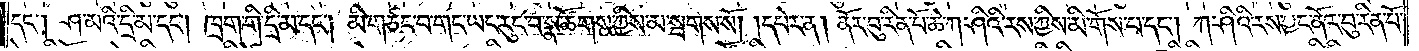དང༌། ཤ་མའི་དྲི་མ་དང༌། ཁྲག་གི་དྲི་མ་དང༌། མི་གཙང་བ་གང་ཡང་རུང་བ་སྣ་ཚོགས་ཀྱིས་མ་སྦགས་སོ། །དཔེར་ན། ནོར་བུ་རིན་པོ་ཆེ་ཀ་ཤིའི་རས་ཀྱིས་མི་གོས་པ་དང༌། ཀ་ཤིའི་རས་ཀྱང་ནོར་བུ་རིན་པོ་
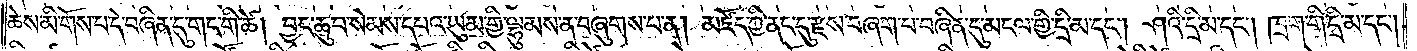ཆེས་མི་གོས་པ་དེ་བཞིན་དུ་གང་གི་ཚེ། བྱང་ཆུབ་སེམས་དཔའ་ཡུམ་གྱི་ལྷུམས་ན་བཞུགས་པ་ན། མཛོད་ཀྱི་ནང་དུ་རྫས་བཞག་པ་བཞིན་དུ་མངལ་གྱི་དྲི་མ་དང༌། ཤའི་དྲི་མ་དང༌། ཁྲག་གི་དྲི་མ་དང༌།
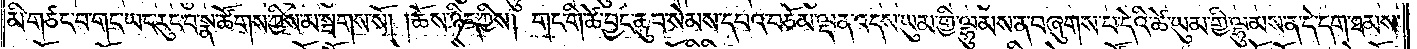མི་གཙང་བ་གང་ཡང་རུང་བ་སྣ་ཚོགས་ཀྱིས་མ་སྦགས་སོ། །ཆོས་ཉིས་ཀྱིས། གང་གི་ཚེ་བྱང་ཆུབ་སེམས་དཔའ་བཅོམ་ལྡན་འདས་ཡུམ་གྱི་ལྷུམས་ན་བཞུགས་པ་དེའི་ཚེ་ཡུམ་གྱི་ལྷུམས་ན་དེ་དག་ཐམས་
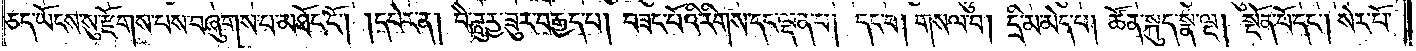ཅད་ཡོངས་སུ་རྫོགས་པས་བཞུགས་པ་མཐོང་ངོ༌། །དཔེར་ན། བཻ་ཌཱུཪྻ་ཟུར་བརྒྱད་པ། བཟང་པོའི་རིགས་དང་ལྡན་པ། དང་བ། གསལ་བ། དྲི་མ་མེད་པ། ཚོན་སྐུད་སྣ་ལྔ། སྔོན་པོ་དང༌། སེར་པོ་
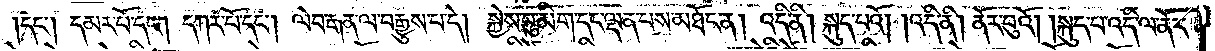དང༌། དམར་པོ་དང༌། དཀར་པོ་དང༌། ལེབ་རྒན་ལ་བརྒྱུས་པ་དེ། སྐྱེས་བུ་མིག་དང་ལྡན་པས་མཐོང་ན། འདི་ནི། སྐུད་པའོ། །འདི་ནི། ནོར་བུའོ། །སྐུད་པ་འདི་ལ་ནོར་
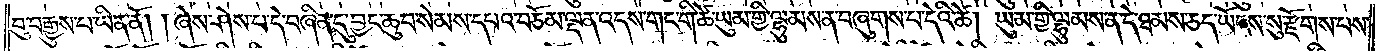བུ་བརྒྱུས་པ་ཡིན་ནོ། །ཞེས་ཤེས་པ་དེ་བཞིན་དུ་བྱང་ཆུབ་སེམས་དཔའ་བཅོམ་ལྡན་འདས་གང་གི་ཚེ་ཡུམ་གྱི་ལྷུམས་ན་བཞུགས་པ་དེའི་ཚེ། ཡུམ་གྱི་ལྷུམས་ན་དེ་ཐམས་ཅད་ཡོངས་སུ་རྫོགས་པས་
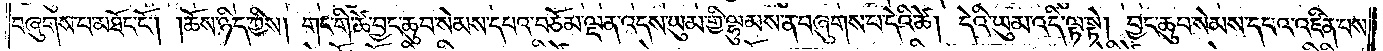བཞུགས་པ་མཐོང་ངོ༌། །ཆོས་ཉིད་ཀྱིས། གང་གི་ཚེ་བྱང་ཆུབ་སེམས་དཔའ་བཅོམ་ལྡན་འདས་ཡུམ་གྱི་ལྷུམས་ན་བཞུགས་པ་དེའི་ཚེ། དེའི་ཡུམ་འདི་ལྟ་སྟེ། བྱང་ཆུབ་སེམས་དཔའ་འཛིན་པས་
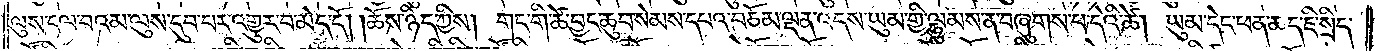ལུས་ངལ་བའམ་ལུས་དུབ་པར་འགྱུར་བ་མེད་དོ། །ཆོས་ཉིད་ཀྱིས། གང་གི་ཚེ་བྱང་ཆུབ་སེམས་དཔའ་བཅོམ་ལྡན་འདས་ཡུམ་གྱི་ལྷུམས་ན་བཞུགས་པ་དེའི་ཚེ། ཡུམ་དེང་ཕན་ཆད་ཇི་སྲིད་
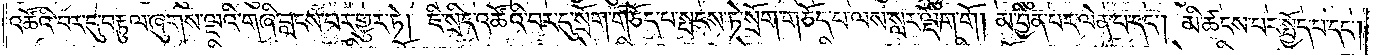འཚོའི་བར་དུ་བརྟུལ་ཞུགས་ལྔའི་གཞི་བླངས་པར་གྱུར་ཏེ། ཇི་སྲིད་འཚོའི་བར་དུ་སྲོག་གཅོད་པ་སྤངས་ཏེ་སྲོག་གཅོད་པ་ལས་སླར་ལྡོག་གོ །མ་བྱིན་པར་ལེན་པ་དང༌། མི་ཚངས་པར་སྤྱོད་པ་དང༌།
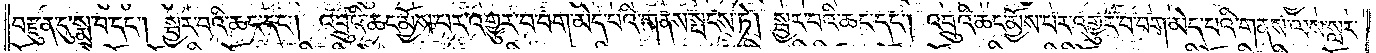བརྫུན་དུ་སྨྲ་བ་དང༌། སྦྱར་བའི་ཆང་དང༌། འབྲུའི་ཆང་མྱོས་པར་འགྱུར་བ་བག་མེད་པའི་གནས་སྤངས་ཏེ། སྦྱར་བའི་ཆང་དང༌། འབྲུའི་ཆང་མྱོས་པར་འགྱུར་བ་བག་མེད་པའི་གནས་ལས་སླར་
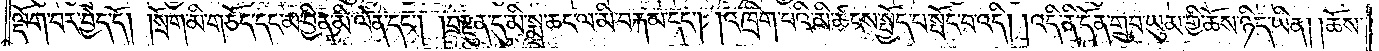ལྡོག་པར་བྱེད་དོ། །སྲོག་མི་གཅོད་དང་མ་བྱིན་མི་ལེན་དང༌། །བརྫུན་དུ་མི་སྨྲ་ཆང་ལ་མི་བརྐམ་དང༌། །འཁྲིག་པའི་མི་ཚངས་སྤྱོད་པ་སྤོང་བ་འདི། །འདི་ནི་དོན་གྲུབ་ཡུམ་གྱི་ཆོས་ཉིད་ཡིན། ཆོས་
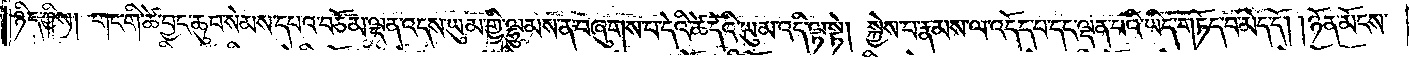ཉིད་ཀྱིས། གང་གི་ཚེ་བྱང་ཆུབ་སེམས་དཔའ་བཅོམ་ལྡན་འདས་ཡུམ་གྱི་ལྷུམས་ན་བཞུགས་པ་དེའི་ཚེ་དེའི་ཡུམ་འདི་ལྟ་སྟེ། སྐྱེས་པ་རྣམས་ལ་འདོད་པ་དང་ལྡན་པའི་ཡིད་གཏོད་པ་མེད་དོ། །ཉོན་མོངས་
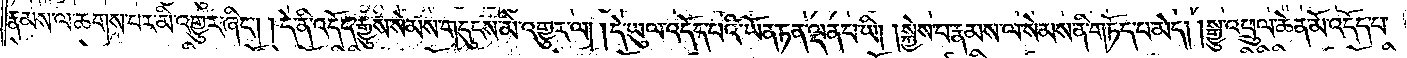རྣམས་ལ་ཆགས་པར་མི་འགྱུར་ཞིང༌། །དེ་ནི་འདོད་རྒྱུས་སེམས་གདུངས་མི་འགྱུར་ལ། །དེ་ཡུལ་འདོད་པའི་ཡོན་ཏན་ལྡན་པ་ཡི། །སྐྱེས་པ་རྣམས་ལ་སེམས་ནི་གཏོད་པ་མེད། །སྒྱུ་འཕྲུལ་ཆེན་མོ་འདོད་པ་
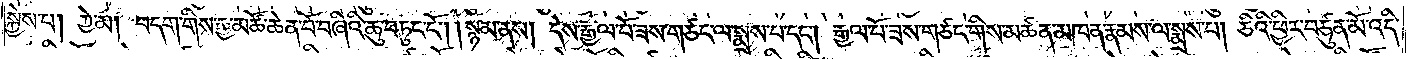སྐྱེས་པ། ཀྱེ་མ། བདག་གིས་རྒྱ་མཚོ་ཆེན་པོ་བཞིའི་ཆུ་བཏུང་ངོ༌། །སྙམ་ནས། དེས་རྒྱལ་པོ་ཟས་གཙང་ལ་སྨྲས་པ་དང༌། རྒྱལ་པོ་ཟས་གཙང་གིས་མཚན་མཁན་རྣམས་ལ་སྨྲས་པ། ཅིའི་ཕྱིར་བཙུན་མོ་འདི་
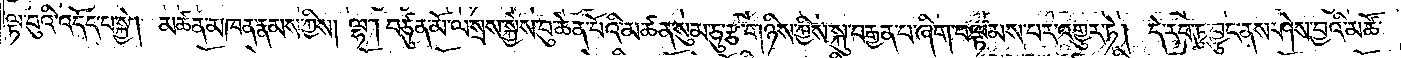ལྟ་བུའི་འདོད་པ་སྐྱེ། མཚན་མཁན་རྣམས་ཀྱིས། ལྷ། བཙུན་མོ་ལ་སྲས་སྐྱེས་བུ་ཆེན་པོའི་མཚན་སུམ་ཅུ་རྩ་གཉིས་ཀྱིས་སྐུ་བརྒྱན་པ་ཞིག་བལྟམས་པར་འགྱུར་ཏེ། དེ་རབ་ཏུ་བྱུང་ནས་ཤེས་བྱའི་མཚོ་
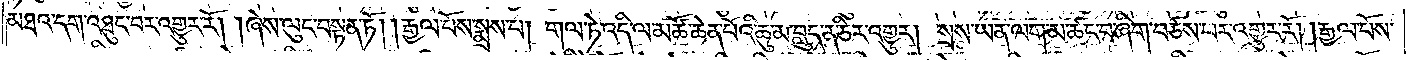མཐའ་དག་འཐུང་བར་འགྱུར་རོ། །ཞེས་ལུང་བསྟན་ཏོ། །རྒྱལ་པོས་སྨྲས་པ། གལ་ཏེ་འདི་ལ་མཚོ་ཆེན་པོའི་ཆུ་མ་བླུད་ན་ཅིར་འགྱུར། སྲས་ཡན་ལག་མ་ཚང་བ་ཞིག་བཙས་པར་འགྱུར་རོ། །རྒྱལ་པོས་
